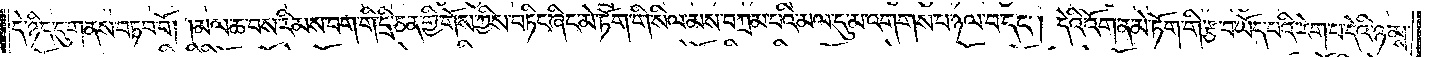དེ་ཉིད་དུ་གནས་བཏབ་བོ། །མལ་ཆ་བས་རིམས་བག་གི་དྲི་ཅན་གྱི་གོས་ཀྱིས་བཏིང་ཞིང་མེ་ཏོག་གི་སིལ་མས་བཀྲམ་པའི་མལ་དུ་མ་འགགས་པ་ཉལ་བ་དང༌། དེའི་འོག་ན་མེ་ཏོག་གི་རྩ་བ་ཡོད་པའི་རེག་པ་དེའི་ཉམས་
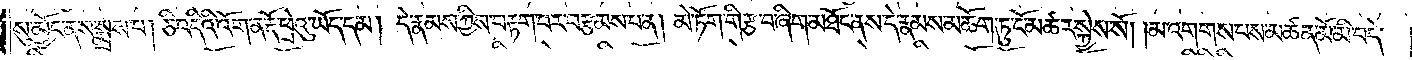སུ་མྱོང་ནས་སྨྲས་པ། ཅི་འདིའི་འོག་ན་རྡོ་ཕྲེའུ་ཡོད་དམ། དེ་རྣམས་ཀྱིས་བརྟག་པར་བརྩམས་པ་ན། མེ་ཏོག་གི་རྩ་བ་ཞིག་མཐོང་ནས་དེ་རྣམས་མཆོག་ཏུ་ངོ་མཚར་སྐྱེས་སོ། །མ་འགགས་པས་མཚན་མོ་མི་བདེ་
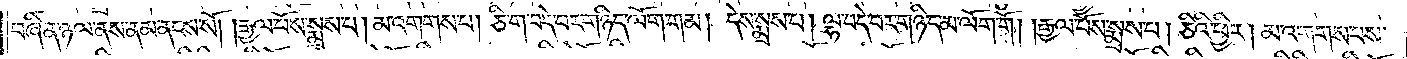བཞིན་ཉལ་ནས་ནམ་ནངས་སོ། །རྒྱལ་པོས་སྨྲས་པ། མ་འགགས་པ། ཅིག་བདེ་བར་གཉིད་ལོག་གམ། དེས་སྨྲས་པ། ལྷ་བདེ་བར་གཉིད་མ་ལོག་གོ། །རྒྱལ་པོས་སྨྲས་པ། ཅིའི་ཕྱིར། མ་འགགས་པས་
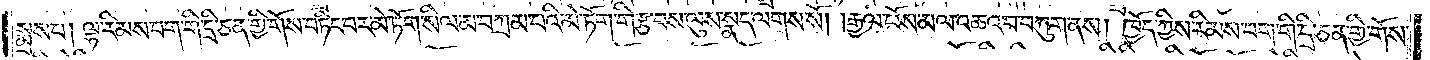སྨྲས་པ། ལྷ་རིམས་བག་གི་དྲི་ཅན་གྱི་གོས་བཏིང་བར་མེ་ཏོག་སིལ་མ་བཀྲམ་པའི་མེ་ཏོག་གི་རྩ་བས་ལུས་སྣད་ལགས་སོ། །རྒྱལ་པོས་མལ་འཆའ་བ་བཀུག་ནས། ཁྱོད་ཀྱིས་རིམས་བག་གི་དྲི་ཅན་གྱི་གོས་
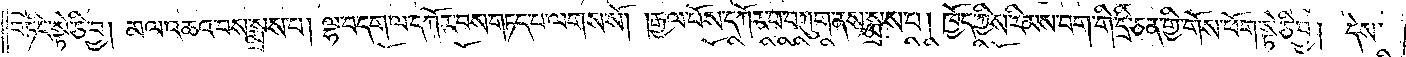བཏིང་སྟེ་ཅི་བྱ། མལ་འཆའ་བས་སྨྲས་པ། ལྷ་བདག་ལ་དཀོར་བས་གཏད་པ་ལགས་སོ། །རྒྱལ་པོས་དཀོར་བ་བཀུག་ནས་སྨྲས་པ། ཁྱོད་ཀྱིས་རིགས་བག་གི་དྲི་ཅན་གྱི་གོས་ཕོག་སྟེ་ཅི་བྱ། དེས་
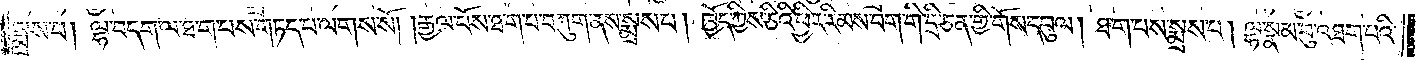སྨྲས་པ། ལྷ་བདག་ལ་ཐ་ག་པས་གཏད་པ་ལགས་སོ། །རྒྱལ་པོས་ཐག་པ་བཀུག་ནས་སྨྲས་པ། ཁྱོད་ཀྱིས་ཅིའི་ཕྱིར་རིམས་བག་གི་དྲི་ཅན་གྱི་གོས་དབུལ། ཐ་ག་པས་སྨྲས་པ། ལྷ་སྣམ་བུ་འཐག་པའི་
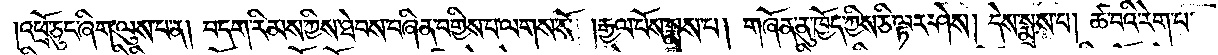འཕྲོ་ཅུང་ཞིག་ལུས་པ་ན། བདག་རིམས་ཀྱིས་ཐེབས་བཞིན་བགྱིས་པ་ལགས་སོ། །རྒྱལ་པོས་སྨྲས་པ། གཞོན་ནུ་ཁྱོད་ཀྱིས་ཅི་ལྟར་ཤེས། དེས་སྨྲས་པ། ཚ་བའི་རེག་པ་
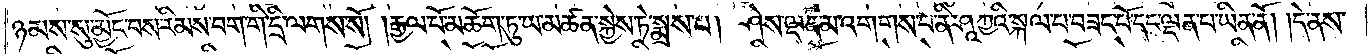ཉམས་སུ་མྱོང་བས་རིམས་བག་གི་དྲི་ལགས་སོ། །རྒྱལ་པོ་མཆོག་ཏུ་ཡ་མཚན་སྐྱེས་ཏེ་སྨྲས་པ། ཤེས་ལྡན་མ་འགགས་པ་ནི་ཤཱཀྱའི་སྐལ་པ་བཟང་པོ་དང་ལྡན་པ་ཡིན་ནོ། །དེ་ནས་
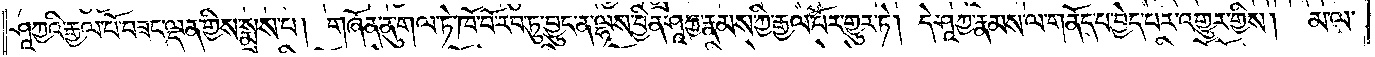ཤཱཀྱའི་རྒྱལ་པོ་བཟང་ལྡན་གྱིས་སྨྲས་པ། གཞོན་ནུ་གལ་ཏེ་ཁོ་བོ་རབ་ཏུ་བྱུང་ན་ལྷས་བྱིན་ཤཱཀྱ་རྣམས་ཀྱི་རྒྱལ་པོར་གྱུར་ཏེ། དེ་ཤཱཀྱ་རྣམས་ལ་གནོད་པ་བྱེད་པར་འགྱུར་གྱིས། མ་ལ་
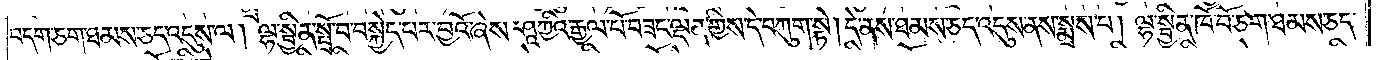བདག་ཅག་ཐམས་ཅད་འདུས་ལ། ལྷ་སྦྱིན་སྤྲོ་བ་བསྐྱེད་པར་བྱའོ་ཞེས་ཤཱཀྱའི་རྒྱལ་པོ་བཟང་ལྡན་གྱིས་དེ་བཀུག་སྟེ། དེ་ནས་ཐམས་ཅད་འདུས་ནས་སྨྲས་པ། ལྷ་སྦྱིན་ཁོ་བོ་ཅག་ཐམས་ཅད་
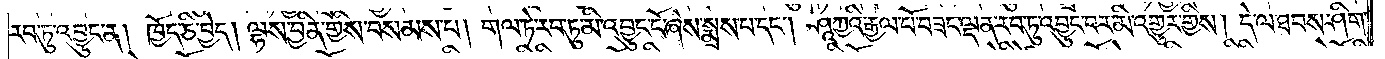རབ་ཏུ་འབྱུང་ན། ཁྱོད་ཅི་བྱེད། ལྷས་བྱིན་གྱིས་བསམས་པ། གལ་ཏེ་རབ་ཏུ་མི་འབྱུང་ངོ་ཞེས་སྨྲས་པ་དང༌། ཤཱཀྱའི་རྒྱལ་པོ་བཟང་ལྡན་རབ་ཏུ་འབྱུང་བར་མི་འགྱུར་གྱིས། དེ་ལ་ཐབས་ཤིག་
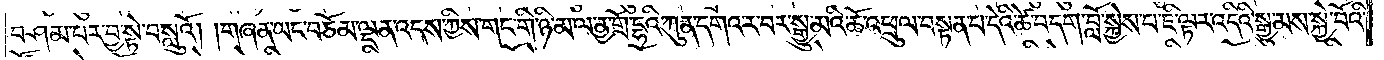བཤམ་པར་བྱ་སྟེ་བསླུའོ། །གཞན་ཡང་བཅོམ་ལྡན་འདས་ཀྱིས་གང་འདི་ཉི་མ་ལ་ནྱ་གྲོ་དྷའི་ཀུན་དགའ་ར་བར་སྒྱུ་མའི་ཆོ་འཕུལ་བསྟན་པ་དེའི་ཚེ་བདག་བློ་སྐྱེས་པ་ཇི་ལྟར་འདིའི་སྒྱུ་མས་སྐྱེ་བོའི་
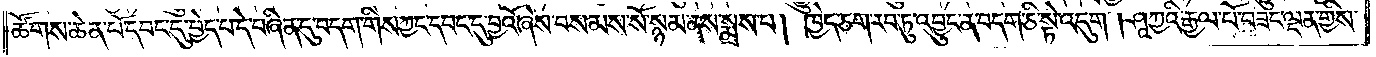ཚོགས་ཆེན་པོ་དབང་དུ་བྱེད་པ་དེ་བཞིན་དུ་བདག་གིས་ཀྱང་དབང་དུ་བྱའོ་ཞེས་བསམས་སོ་སྙམ་ནས་སྨྲས་པ། ཁྱེད་ཅག་རབ་ཏུ་འབྱུང་ན་བདག་ཅི་སྟེ་འདུག །ཤཱཀྱའི་རྒྱལ་པོ་བཟང་ལྡན་གྱིས་
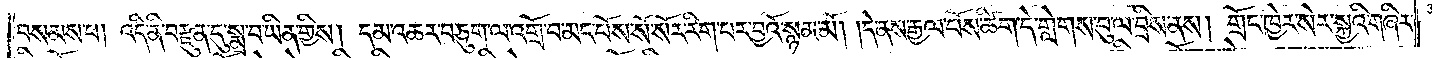བསམས་པ། འདི་ནི་བརྫུན་དུ་སྨྲ་བ་ཡིན་གྱིས། དམ་འཆར་བཅུག་ལ་འགྲོ་བ་མང་པོས་སོ་སོར་རིག་པར་བྱའོ་སྙམ་མོ། །དེ་ནས་རྒྱལ་པོས་ཚིག་དེ་གླེགས་བུ་ལ་བྲིས་ནས། གྲོང་ཁྱེར་སེར་སྐྱའི་གཞིར་
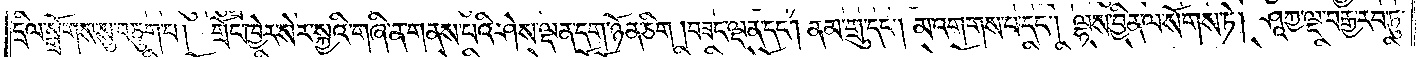དྲིལ་སྒྲོགས་སུ་བཅུག་པ། གྲོང་ཁྱེར་སེར་སྐྱའི་གཞི་ན་གནས་པའི་ཤེས་ལྡན་དག་ཉོན་ཅིག །བཟང་ལྡན་དང༌། ནམ་གྲུ་དང༌། མ་འགགས་པ་དང༌། ལྷས་བྱིན་ལ་སོགས་ཏེ། ཤཱཀྱ་ལྔ་བརྒྱ་རབ་ཏུ་
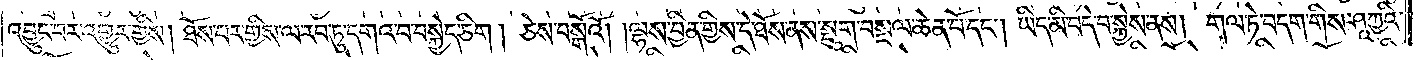འབྱུང་བར་འགྱུར་གྱིས། ཐོས་པར་གྱིས་ལ་རབ་ཏུ་དགའ་བ་བསྐྱེད་ཅིག །ཅེས་བསྒོའོ། །ལྷས་བྱིན་གྱིས་དེ་ཐོས་ནས་སྡུག་བསྔལ་ཆེན་པོ་དང༌། ཡིད་མི་བདེ་བ་སྐྱེས་ནས། གལ་ཏེ་བདག་གིས་ཤཱཀྱའི་
